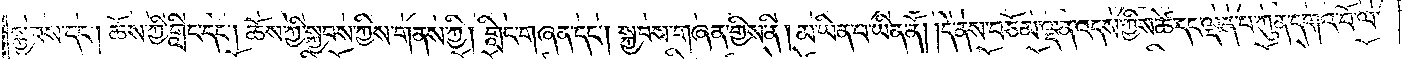སྐྱབས་དང༌། ཆོས་ཀྱི་གླིང་དང༌། ཆོས་ཀྱི་སྐྱབས་ཀྱིས་གནས་ཀྱི། གླིང་གཞན་དང༌། སྐྱབས་གཞན་གྱིས་ནི། མ་ཡིན་པ་ཡིན་ནོ། །དེ་ནས་བཅོམ་ལྡན་འདས་ཀྱིས་ཚེ་དང་ལྡན་པ་ཀུན་དགའ་བོ་ལ་
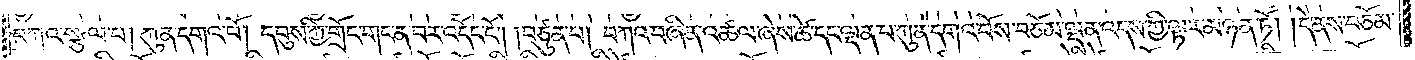བཀའ་སྩལ་པ། ཀུན་དགའ་བོ། དབུས་ཀྱི་གྲོང་གང་ན་བར་འདོང་ངོ༌། །བཙུན་པ། བཀའ་བཞིན་འཚལ་ཞེས་ཚེ་དང་ལྡན་པ་ཀུན་དགའ་བོས་བཅོམ་ལྡན་འདས་ཀྱི་ལྟར་མཉན་ཏོ། །དེ་ནས་བཅོམ་
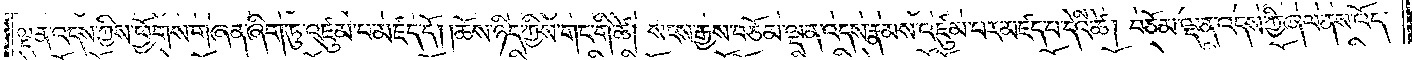ལྡན་འདས་ཀྱིས་ཕྱོགས་གཞན་ཞིག་ཏུ་འཛུམ་པ་མཛད་དོ། །ཆོས་ཉིད་ཀྱིས་གང་གི་ཚེ། སངས་རྒྱས་བཅོམ་ལྡན་འདས་རྣམས་འཛུམ་པར་མཛད་པ་དེའི་ཚེ། བཅོམ་ལྡན་འདས་ཀྱི་ཞལ་ནས་འོད་
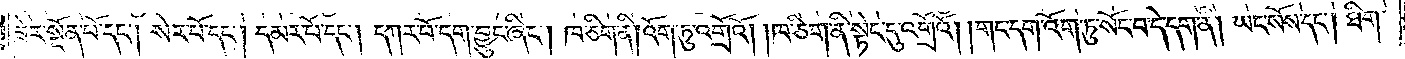ཟེར་སྔོན་པ་དང༌། སེར་པོ་དང༌། དམར་པོ་དང༌། དཀར་པོ་དག་བྱུང་ཞིང༌། ཁ་ཅིག་ནི། འོག་ཏུ་འགྲོའོ། །ཁ་ཅིག་ནི་སྟེང་དུ་འགྲོའོ། །གང་དག་འོག་ཏུ་སོང་བ་དེ་དག་ནི། ཡང་སོས་དང༌། ཐིག་
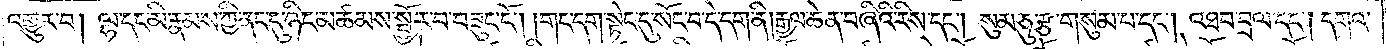འགྱུར་བ། ལྷ་དང་མི་རྣམས་ཀྱི་ནང་དུ་ཉིང་མཚམས་སྦྱོར་བ་བཟུང་ངོ༌། །གང་དག་སྟེང་དུ་སོང་བ་དེ་དག་ནི།རྒྱལ་ཆེན་བཞིའི་རིས་དང༌། སུམ་ཅུ་རྩ་གསུམ་པ་དང༌། འཐབ་བྲལ་དང༌། དགའ་
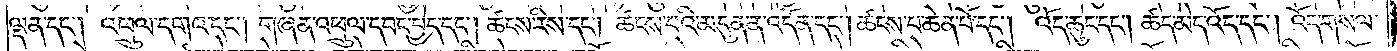ལྡན་དང༌། འཕྲུལ་དགའ་དང༌། གཞན་འཕྲུལ་དབང་བྱེད་དང༌། ཚངས་རིས་དང༌། ཚངས་པའི་མདུན་ན་འདོན་དང༌། ཚངས་པ་ཆེན་པོ་དང༌། འོད་ཆུང་དང༌། ཚད་མེད་འོད་དང༌། འོད་གསལ་
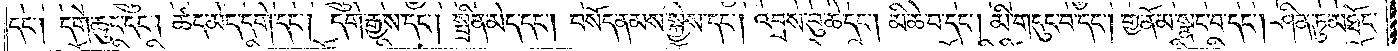དང༌། དགེ་ཆུང་དང༌། ཚད་མེད་དགེ་དང༌། དགེ་རྒྱས་དང༌། སྤྲིན་མེད་དང༌། བསོད་རྣམས་སྐྱེས་དང༌། འབྲས་བུ་ཆེ་དང༌། མི་ཆེ་བ་དང༌། མི་གདུང་བ་དང༌། གྱ་ནོམ་སྣང་བ་དང༌། ཤིན་ཏུ་མཐོང་
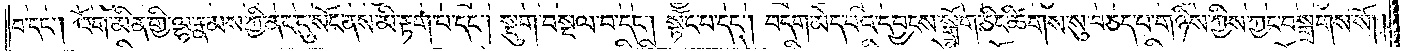བ་དང༌། འོག་མིན་གྱི་ལྷ་རྣམས་ཀྱི་ནང་དུ་སོང་ནས་མི་རྟག་པ་དང༌། སྡུག་བསྔལ་བ་དང༌། སྟོང་པ་དང༌། བདག་མེད་པའི་དབྱངས་སྒྲོག་ཅིང་ཚིགས་སུ་བཅད་པ་གཉིས་ཀྱིས་ཀྱང་བསྒྲགས་སོ། །
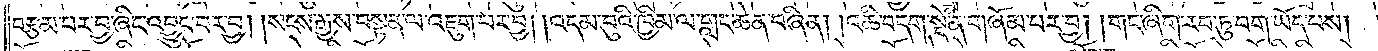བརྩམ་པར་བྱ་ཞིང་འབྱུང་བར་བྱ། །སངས་རྒྱས་བསྟན་ལ་འཇུག་པར་བྱ། །འདམ་བུའི་ཁྱིམ་ལ་གླང་ཆེན་བཞིན། །འཆི་བདག་སྡེ་ནི་གཞོམ་པར་བྱ། །གང་ཞིག་རབ་ཏུ་བག་ཡོད་པས། །
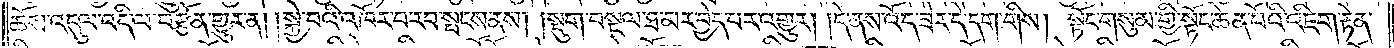ཆོས་འདུལ་འདི་ལ་བརྩོན་གྱུར་ན། །སྐྱེ་བའི་འཁོར་བ་རབ་སྤངས་ནས། །སྡུག་བསྔལ་ཐ་མར་བྱེད་པར་འགྱུར། །དེ་ནས་འོད་ཟེར་དེ་དག་གིས། སྟོང་གསུམ་གྱི་སྟོང་ཆེན་པོའི་འཇིག་རྟེན་
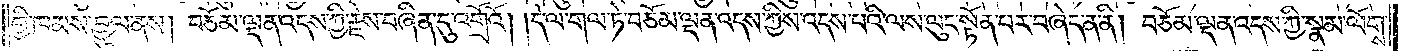གྱི་ཁམས་བྱུལ་ནས། བཅོམ་ལྡན་འདས་ཀྱི་རྗེས་བཞིན་དུ་འགྲོའོ། །དེ་ལ་གལ་ཏེ་བཅོམ་ལྡན་འདས་ཀྱིས་འདས་པའི་ལས་ལུང་སྟོན་པར་བཞེད་ན་ནི། བཅོམ་ལྡན་འདས་ཀྱི་སྣམ་ལོགས་
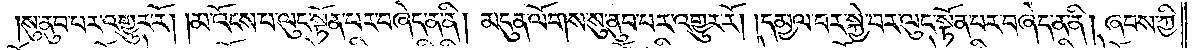སུ་ནུབ་པར་འགྱུར་རོ། །མ་འོངས་པ་ལུང་སྟོན་པར་བཞེད་ན་ནི། མདུན་ལོགས་སུ་ནུབ་པར་འགྱུར་རོ། །དམྱལ་བར་སྐྱེ་བར་ལུང་སྟོན་པར་བཞེད་ན་ནི། ཞབས་ཀྱི་
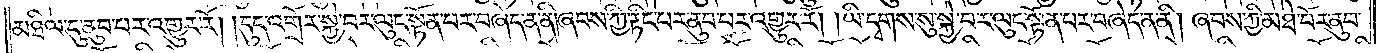མཐིལ་དུ་ནུབ་པར་འགྱུར་རོ། །དུད་འགྲོར་སྐྱེ་བར་ལུང་སྟོན་པར་བཞེད་ན་ནི། ཞབས་ཀྱི་རྟིང་པར་ནུབ་པར་འགྱུར་རོ། །ཡི་དྭགས་སུ་སྐྱེ་བར་ལུང་སྟོན་པར་བཞེད་ན་ནི། ཞབས་ཀྱི་མཐེ་བོར་ནུབ་
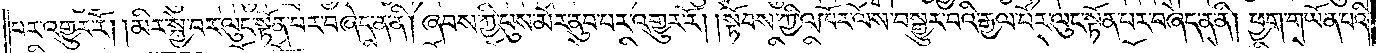པར་འགྱུར་རོ། །མིར་སྐྱེ་བར་ལུང་སྟོན་པར་བཞེད་ན་ནི། ཞབས་ཀྱི་པུས་མོར་ནུབ་པར་འགྱུར་རོ། །སྟོབས་ཀྱི་འཁོར་ལོས་བསྒྱུར་བའི་རྒྱལ་པོར་ལུང་སྟོན་པར་བཞེད་ན་ནི། ཕྱག་གཡོན་པའི་
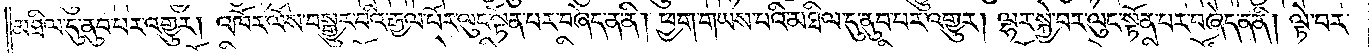མཐིལ་དུ་ནུབ་པར་འགྱུར། འཁོར་ལོས་བསྒྱུར་བའི་རྒྱལ་པོར་ལུང་སྟོན་པར་བཞེད་ན་ནི། ཕྱག་གཡས་པའི་མཐིལ་དུ་ནུབ་པར་འགྱུར། ལྷར་སྐྱེ་བར་ལུང་སྟོན་པར་བཞེད་ན་ནི། ལྟེ་བར་
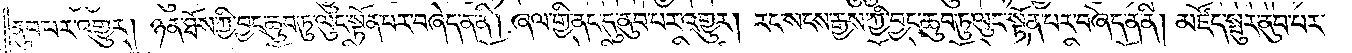ནུབ་པར་འགྱུར། ཉན་ཐོས་ཀྱི་བྱང་ཆུབ་ཏུ་ལུང་སྟོན་པར་བཞེད་ན་ནི། ཞལ་གྱི་ནང་དུ་ནུབ་པར་འགྱུར། རང་སངས་རྒྱས་ཀྱི་བྱང་ཆུབ་ཏུ་ལུང་སྟོན་པར་བཞེད་ན་ནི། མཛོད་སྤུར་ནུབ་པར་
